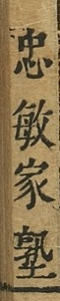忠敏家塾
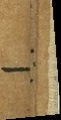一
